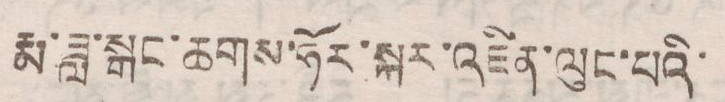རྨ་ཟླ་སྒང་ཆགས་ཧོར་སྐར་འཛིང་ལུང་པའི་
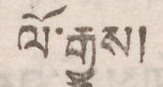ལོ་རྒྱུས།
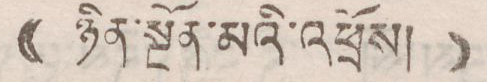(( ཉིན་སྔོན་མའི་འཕྲོས། ))
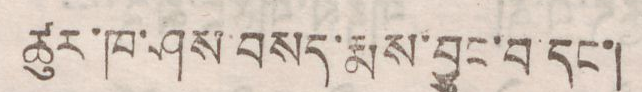ཚུར་ཁ་ཤས་བསད་རྨས་བྱུང་བ་དང་།
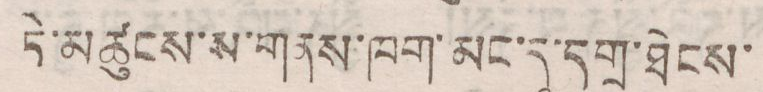དེ་མཚུངས་ས་གནས་ཁག་མང་དུ་དགྲ་ཐེངས་
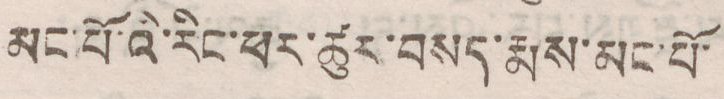མང་པོ་འི་རིང་ཕར་ཚུར་བསད་རྨས་མང་པོ་
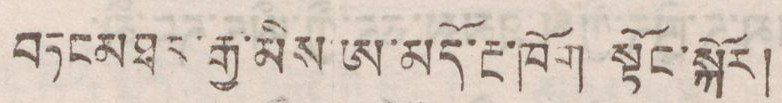བཏང མཐར་རྒྱ་མིས་ཨ་མདོ་རྔ་ཁོག སྟོང་སྐོར།
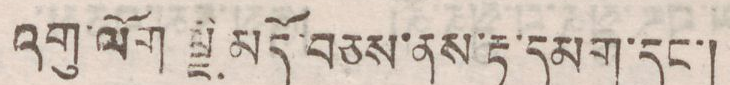འགུ་ལོག ལྗི་མདོ་བཅས་ནས་རྟ་དམག་དང་།
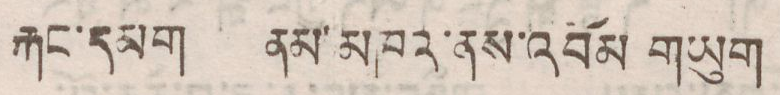རྐང་དམག ནམ་མཁའ་ནས་འབོམ གཡུག
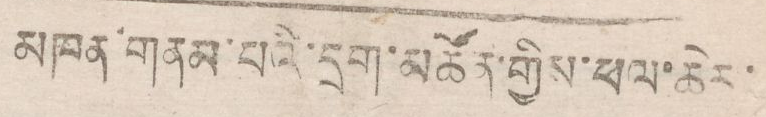མཁན་གནས་པའི་དྲག་མཚོན་གྱིས་ཕལ་ཆེར་
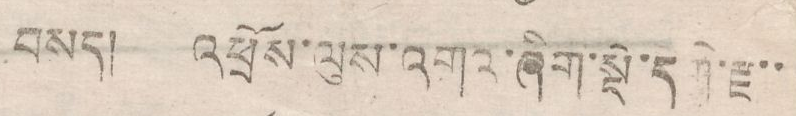བསད། འཕྲོས་ལུས་འགའ་ཞིག་སྡེ་དགེ་རྫ་་
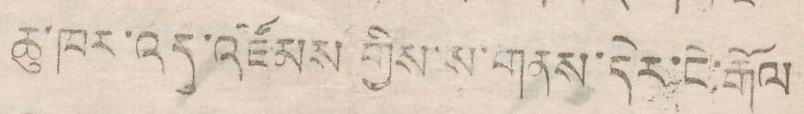ཆུ་ཁར་འདུ་འཛོམས་གྱིས་མ་གནས་དེར་ངོ་རྒོལ
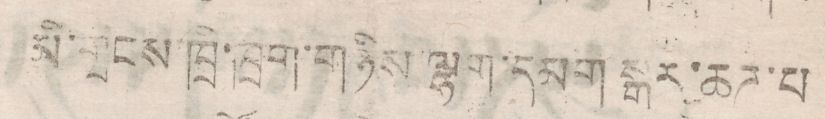མི་གྲངས་ཁྲི་ཁྲག་གཉིས་ལྷག་དམག་སྒར་ཆཌ་པ
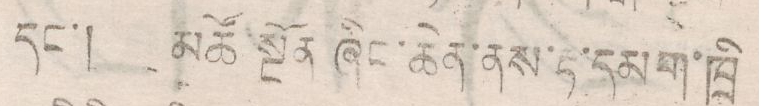དང་། མཚོ་སྔོན ཞིང་ཆེན་ནས་རྟ་དམག་ཁྲི
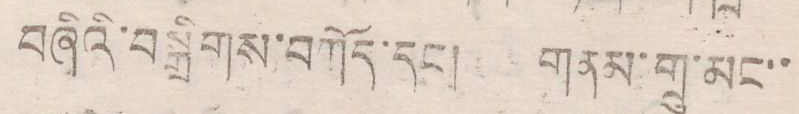བཞིའི་བསྒྲིགས་བཀོད་དང། གནམ་གྲུ་མང་་
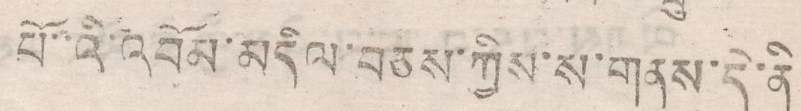པོ་་འི་འབོམ་འདིལ་བཅས་ཀྱིས་ས་གནས་དེ་ནི
